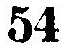54
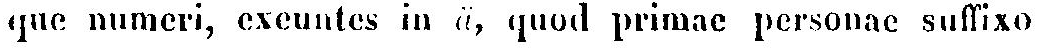que numeri, exeuntes in ä, quod primae personae suffixo
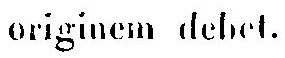originem debet.
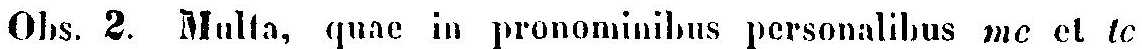Obs. 2. Multa, quae in pronominibus personalibus me et te
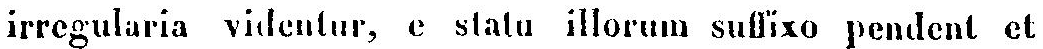irregularia videntur, e statu illorum sussixo pendent et
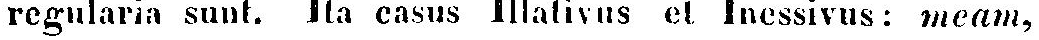regularia sunt. Ita casus Illativus et Inessivus: meam,
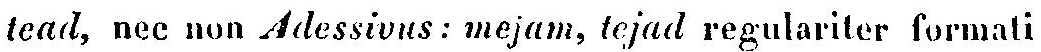tead, nec non Adessivus : mejam, tejad regulariter formati
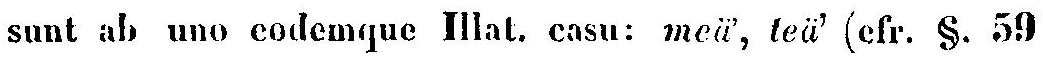sunt ab uno codemque Illat. casu: meä', teä' (efr. §. 59
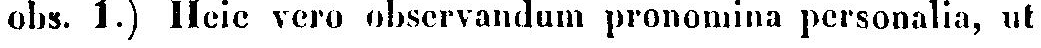obs. 1.) Heic vero observandum pronomina personalia, ut
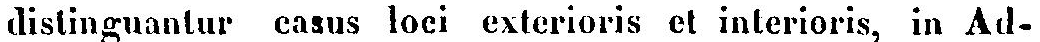distinguantur casus loci exterioris et interioris, in Ad-
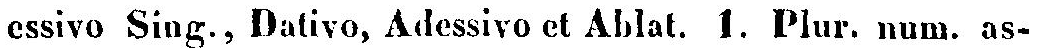essivo Sing., Dativo, Adessivo et Ablat. 1. Plur. num. as-
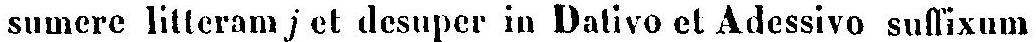sumere litteram j et desuper in Dativo et Adessivo suffixum
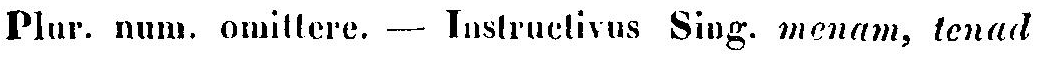Plur. num. omittere. — Instructivus Sing. menam, tenad
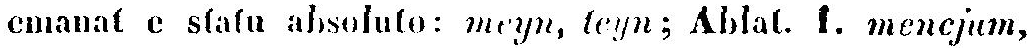emanat e statu absoluto: meyn, teyn; Ablat. 1. mencjum,
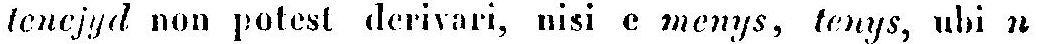tencjyd non potest derivari, nisi e menys, tonys, ubi n
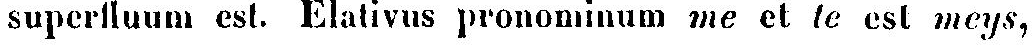superfluum est. Elativus pronominum me et te est meys,
